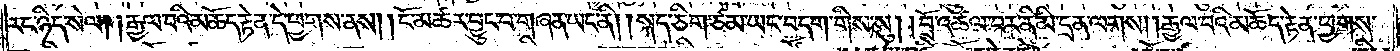རང་ཉིད་སེལ། །རྒྱལ་བའི་མཆོད་རྟེན་དེ་ཕྱགས་ནས། །ངོ་མཚར་བྱུང་བ་གཞན་ཡང་ནི། །སྐད་ཅིག་ཙམ་ཡང་བདག་གིས་སུ། །བྲོ་འཚལ་བར་ནི་མི་དྲན་ལགས། །རྒྱལ་བའི་མཆོད་རྟེན་ཕྱགས་
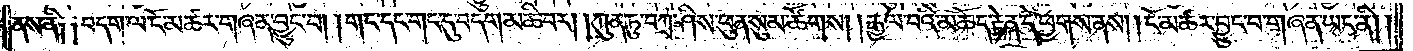ནས་ནི། །བདག་ལ་ངོ་མཚར་གཞན་བྱུང་བ། །གང་དང་གང་དུ་བདག་མཆི་བར། །ཀུན་ཏུ་བཀྲ་ཤིས་ཕུན་སུམ་ཚོགས། །རྒྱལ་བའི་མཆོད་རྟེན་དེ་ཕྱགས་ནས། །ངོ་མཚར་བྱུང་བ་གཞན་ཡང་ནི། །
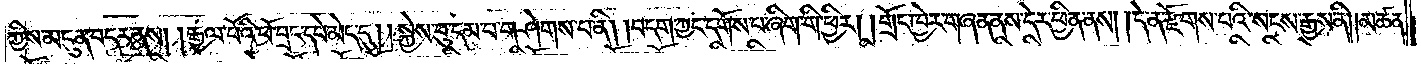ཀྱིས་མདུན་བདར་ནས། །རྒྱལ་པོའི་ཕོ་བྲང་དཔེ་མེད་དུ། །སྐྱེས་བུ་དམ་པ་གཤེགས་པ་ནི། །བདག་ཀྱང་དགོས་པ་ཞིག་གི་ཕྱིར། །གྲོང་ཁྱེར་གཞན་ནས་དེར་ཕྱིན་ནས། །དེ་ན་རྫོགས་པའི་སངས་རྒྱས་ནི། །མཚན་
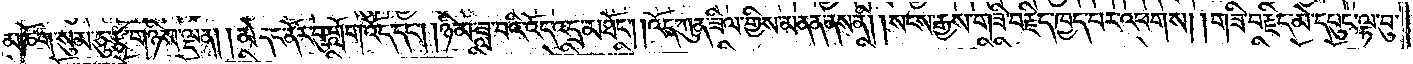མཆོག་སུམ་ཅུ་རྩ་གཉིས་ལྡན། །མེ་དང་ནོར་བུ་གློག་འོད་དང༌། །ཉི་མ་ཟླ་བའི་འོད་འདྲ་མཐོང༌། །འོད་ཀུན་ཟིལ་གྱིས་མནན་ནས་ནི། །སངས་རྒྱས་གཟི་བརྗིད་ཁྱད་པར་འཕགས། །གཟི་བརྗིད་མེ་དཔུང་ལྟ་བུ་
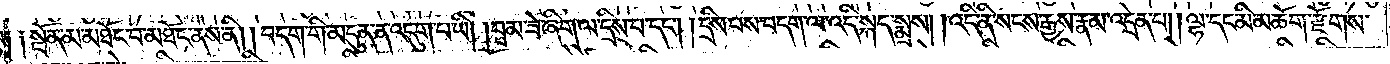སྟེ༑ ༑སྔོན་མ་མཐོང་བ་མཐོང་ནས་ནི། །བདག་གི་མདུན་ན་འདུག་པ་ཡི། །བྲམ་ཟེ་ཞིག་ལ་དྲིས་པ་དང༌། །དྲིས་པས་བདག་ལ་འདི་སྐད་སྨྲས། །འདི་ནི་སངས་རྒྱས་རྣམ་འདྲེན་པ། །ལྷ་དང་མི་མཆོག་རྫོགས་
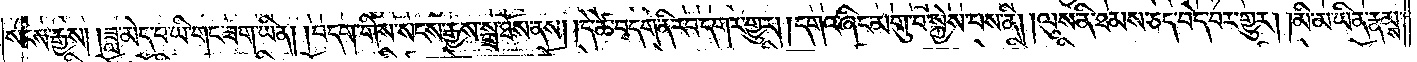སངས་རྒྱས། །ཟླ་མེད་པ་ཡི་གང་ཟག་ཡིན། །བདག་གིས་སངས་རྒྱས་སྒྲ་ཐོས་ནས། །དེ་ཚེ་བདག་ནི་རབ་དགར་གྱུར། །དགའ་ཞིང་མགུ་བ་སྐྱེས་པས་ནི། །ལུས་ནི་ཐམས་ཅད་བདེ་བར་གྱུར། །མི་མ་ཡིན་རྣམས་
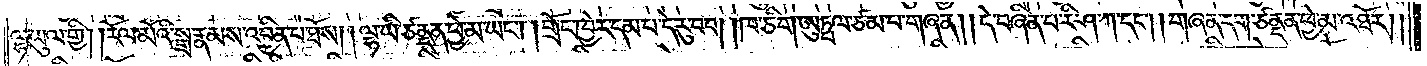ལྷ་ཡུལ་གྱི། །རོལ་མོའི་སྒྲ་རྣམས་འབྱིན་པ་ཐོས། །ལྷ་ཡི་ཙནྡན་ཕྱེ་མ་ཡང༌། །གྲོང་ཁྱེར་དམ་པ་དེ་རུ་བབ། །ཁ་ཅིག་ཨུཏྤལ་ཙམ་པ་གཞན། །དེ་བཞིན་པ་རི་ཤ་ཀ་དང༌། གཞན་དག་ཙནྡན་ཕྱེ་མ་འཐོར། །
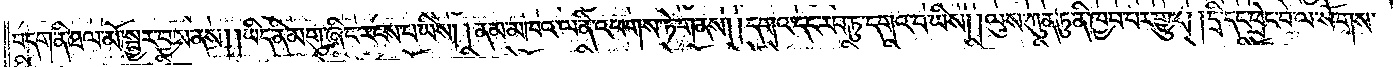བདག་ནི་ཐལ་མོ་སྦྱར་བྱས་ནས། །ཡིད་ནི་མགུ་ཞིང་རངས་པ་ཡིས། །ནམ་མཁའ་ལ་ནི་འཕགས་ཏེ་གནས། །དགའ་དང་རབ་ཏུ་དགའ་བ་ཡིས། །ལུས་ཀུན་ཏུ་ནི་ཁྱབ་པར་གྱུར། །དྲི་དང་ཕྲེང་བ་ལ་སོགས་
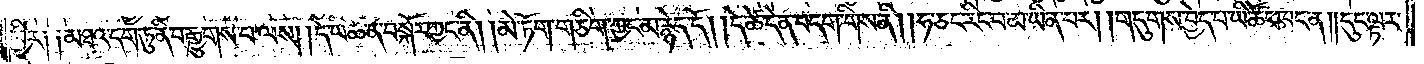ཕྱིར། །མཐའ་དག་ཏུ་ནི་བརྒྱུགས་པ་ལས། །དེ་ཡི་ཚེ་ན་བསྐོར་ཀྱང་ནི། །མེ་ཏོག་གཅིག་ཀྱང་མ་རྙེད་དོ། །དེ་ཚེ་དེ་ན་བདག་གིས་ནི། །ཧ་ཅང་རིང་བ་མ་ཡིན་པར། །གདུགས་བྱེད་པ་ཡི་ཚོང་ཁང་ན། །དུང་ལྟར་
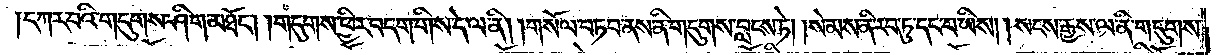།དཀར་བའི་གདུགས་ཤིག་མཐོང༌། །གདུགས་ཕྱིར་བདག་གིས་དེ་ལ་ནི། །གསོལ་བཏབ་ནས་ནི་གདུགས་བླངས་ཏེ། །སེམས་ནི་རབ་ཏུ་དང་བ་ཡིས། །སངས་རྒྱས་ལ་ནི་གདུགས་
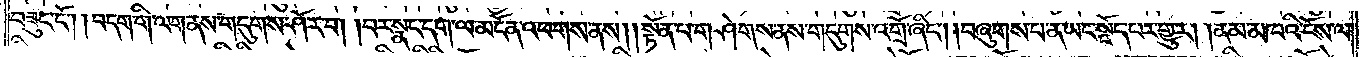བཟུང་ངོ༌། །བདག་གི་ལག་ནས་གདུགས་ཤོར་བ། །བར་སྣང་དག་ལ་མངོན་འཕགས་ནས། །སྟོན་པ་གཤེགས་ནས་གདུགས་འགྲོ་ཞིང༌། །བཞུགས་པ་ན་ཡང་སྡོད་པར་གྱུར། །ནམ་མཁའི་ངོས་ལ་
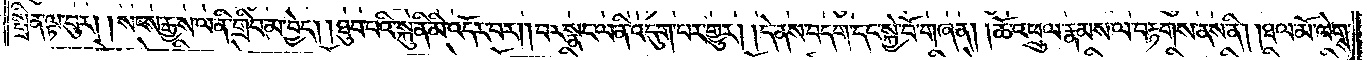སྤྲིན་ལྟ་བུར། །སངས་རྒྱས་ལ་ནི་གྲིབ་མ་བྱེད། །ཐུབ་པའི་སྐུ་ནི་མི་འདོར་བ། །བར་སྣང་ལ་ནི་འདུག་པར་གྱུར། །དེ་ནས་བདག་དང་སྐྱེ་བོ་གཞན། །ཆོ་འཕྲུལ་རྣམས་ལ་བརྟགས་ནས་ནི། །ཐལ་མོ་ལེགས་
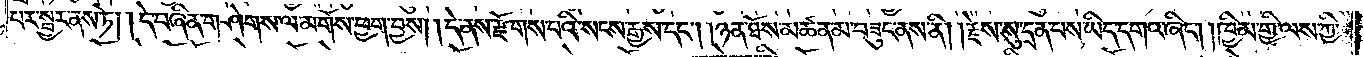པར་སྦྱར་ནས་ཏེ། །དེ་བཞིན་གཤེགས་ལ་མགོས་ཕྱག་བྱས། །དེ་ནས་རྫོགས་པའི་སངས་རྒྱས་དང༌། །ཉན་ཐོས་མཚན་མ་བཟུང་ནས་ནི། །རྗེས་སུ་དྲན་པས་ཡིད་དགའ་ཞིང༌། །ཁྱིམ་གྱི་ལས་ཀྱི་
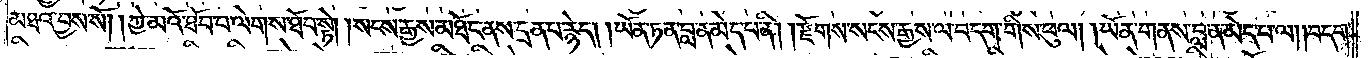མཐའ་བྱས་སོ། །ཀྱེ་མའོ་ཐོབ་པ་ལེགས་ཐོབ་སྟེ། །སངས་རྒྱས་མཐོང་ནས་དྲན་པ་རྙེད། །ཡོན་ཏན་བླ་ན་མེད་པ་ནི། །རྫོགས་སངས་རྒྱས་ལ་བདག་གིས་ཕུལ། །ཡོན་གནས་བླ་ན་མེད་པ་ལ། །བདག་
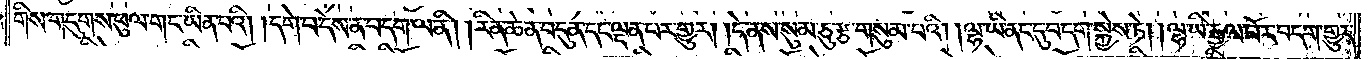གིས་གདུགས་ཕུལ་གང་ཡིན་པའི། །དགེ་བ་དེས་ན་བདག་ལ་ནི། །རིན་ཆེན་བདུན་དང་ལྡན་པར་གྱུར། །དེ་ནས་སུམ་ཅུ་རྩ་གསུམ་པའི། །ལྷ་ཡི་ནང་དུ་བདག་སྐྱེས་ཏེ། །ལྷ་ཡི་རྒྱལ་པོར་བདག་གྱུར་
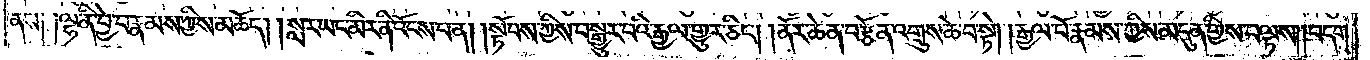ནས། །ལྷ་ནི་བྱེ་བ་རྣམས་ཀྱིས་མཆོད། །སླར་ཡང་མིར་ནི་འོངས་པ་ན། །སྟོབས་ཀྱིས་བསྒྱུར་བའི་རྒྱལ་གྱུར་ཅིང༌། །ནོར་ཆེན་བརྩོན་འགྲུས་ཆེ་བ་སྟེ། །རྒྱལ་པོ་རྣམས་ཀྱིས་མདུན་གྱིས་བལྟས། །བདག་
